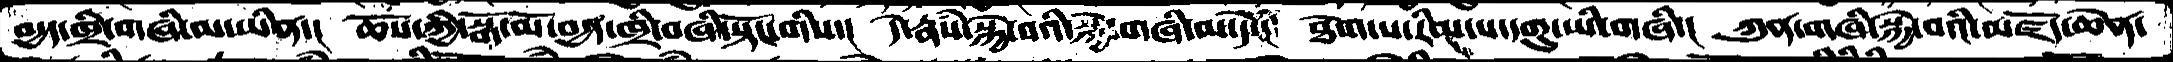བདྱད་ཁྲི་གཞི་མ་ཡིན་།  ཆོས་ཀྱི་སྒོ་མོ་བདྱད་ཁྲི་བཞི་སྟོང་གིས་།  དེ་རྣཾས་སྐྱེ་བའི་སྐྱེ་གཞི་མ་དེ་།  ཐེག་པ་རིམ་པ་དགུ་ཡི་གཞི་།  ཀུན་གཞི་སྐྱེ་བའི་མཛོད་ཆེན་
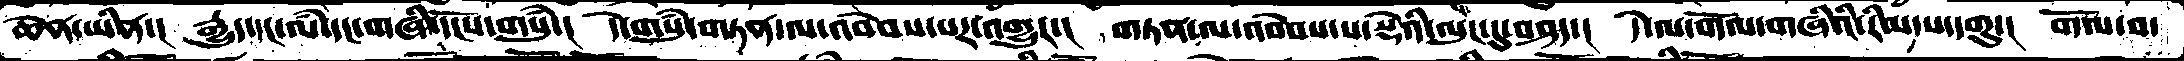ཆེན་ཡིན་།  རྒྱུད་དང་ལཾ་དང་གཞི་དངོས་གསུཾ་།  དེ་གསུཾ་གཏན་ལ་འབེབས་པར་འགྱུར་།  གཏན་ལ་འབེབས་པ་སྡེའི་ལུང་དུ་བཤད་།  དེ་ལ་གོལ་གཞིའི་རིམ་པ་དགུ་།  གོལ་བ་
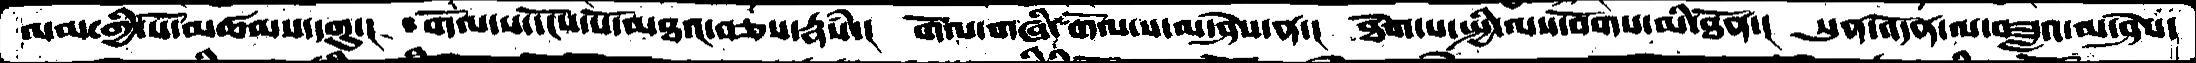ལམ་གྱི་སོ་མཚམས་དགུ་།  གོལ་ས་དངོས་པོ་མཐའ་བཅས་རྣཾས་།  གོལ་གཞི་གོལ་ས་མ་ཤེས་ན་།  ཐེག་པ་སྤྱི་ལས་བོགས་མི་ཐོན་།  སུན་འདོན་ལ་བཟླའ་མ་ཤེས་
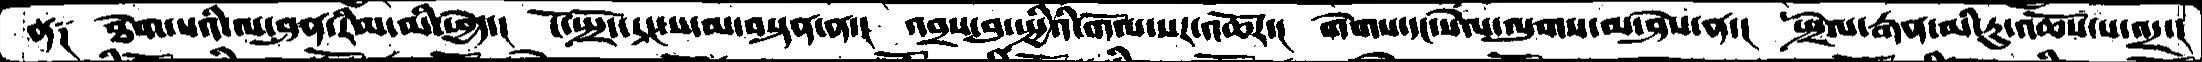ན༑  ཐེག་པའི་ལ་ཤན་རིམ་མི་ཕྱེད་།  ངོ་སྤྲོད་རང་ས་མ་བསྟན་ན་།  འབྲས་བུ་སྤྱིའི་གོལ་སར་འཆོར་།  གེགས་དང་སེལ་ལུགས་མ་ཤེས་ན་།  སྤྲེལ་རྒན་མི་རུ་འཆོས་པ་འདྲ་།
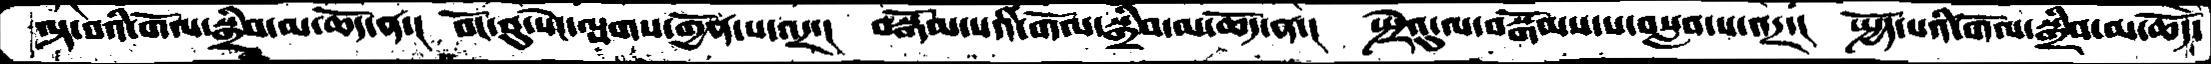ལྟ་བའི་གོལ་སྒྲིབ་མ་ཆོད་ན་།  བོང་བུ་སེང་ལྤགས་གྱོན་པ་འདྲ་།  བསྒོམ་པའི་གོལ་སྒྲིབ་མ་ཆོད་ན་། སྤྲེའུ་ལ་བསྒོམས་པ་བསླབ་པ་འདྲ་།  སྤྱོད་པའི་གོལ་སྒྲིབ་མ་ཆོད་
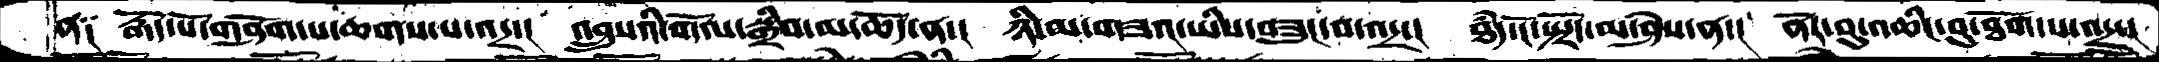ན༑  རྒོད་པོ་གཤོག་པ་ཆགས་པ་འདྲ་།  འབྲུསའི་གོལ་སྒྲིབ་མ་ཆོད་ན་།  ཉི་མ་གཟའ་ཡིས་བཟུང་བ་འདྲ་།  ཐདཾ་ངོ་སྤྲོད་མ་ཤེས་ན་།  ནོར་བུ་འཆིང་བུ་ཐོག་པ་འདྲ་།
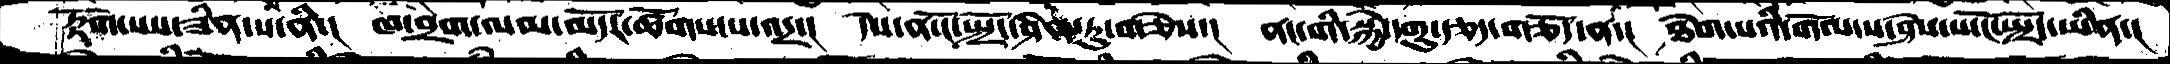རྟོག་པས་ཟིན་པ་ནི་།  ཁ་བྲག་ལམ་མདོར་ཚོགས་པ་འདྲ་།  དེས་ན་ངོ་སྤྲོད་ཤིན་ཏུ་གཅེས་།  ནང་གི་སྐྱེ་དགུ་རྩད་གཅོད་ན་།  ཐེག་པའི་གོལ་ས་ཤེས་པ་ངོ་སྤྲོད་ཡིན་།
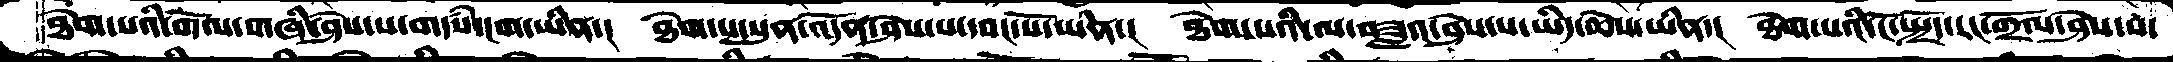ཐེག་པའི་གོལ་གཞི་ཤེས་པ་གདཾས་ངག་ཡིན་།  ཐེག་པ་སུན་འདོན་ཤེས་པ་དབང་པོ་ཡིན་།  ཐེག་པའི་ལ་བཟླའ་ཤེས་པ་ཡིད་ཆེས་ཡིན་།  ཐེག་པའི་ངོ་སྤྲོད་རང་གྲོལ་ཤེས་པ་
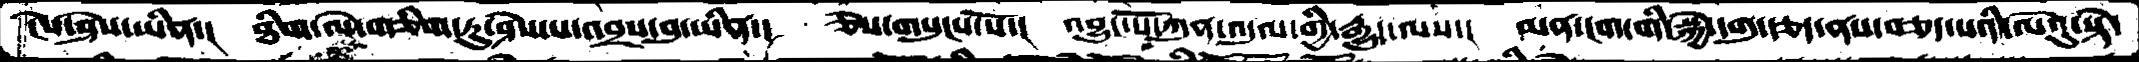ངེས་ཤེས་ཡིན་།  ཐིག་ལེ་གཅིག་ཏུ་ཤེས་པ་འབྲས་བུ་ཡིན་།  ཅེས་གསུངས་སོ་།  འབྱུང་པོ་ཀུན་འདུལ་གྱི་རྒྱུད་ལས་།  མན་ངག་གི་སྐྱེ་དགུ་རྩད་ནས་བཅད་པའི་ལེའུ་སྟེ་
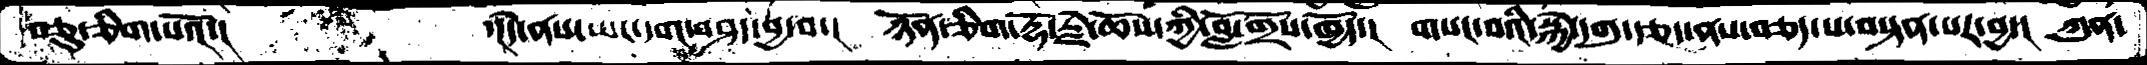བཅུ་ཅིག་པའོ་།       ་།དེེ་ནས་ཡང་དག་བཤད་བྱ་བ་།  ཉོན་ཅིག་རྡོ་རྗེ་ཆོས་ཀྱི་བློ་གྲོས་ཁྱོད་།  གསང་བའི་སྐྱེ་དགུ་རྩད་ནས་བཅད་པ་བསྟན་པར་བྱ་།  ཀུན་
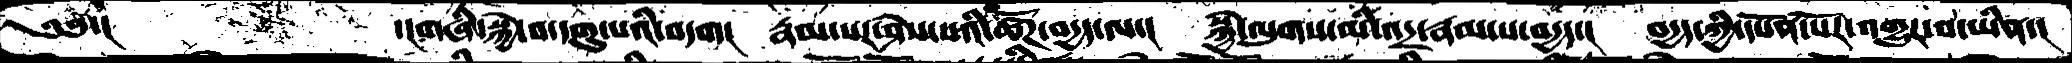༄༅་།           ་།གཞི་སྐྱེ་བ་དགུ་པའི་བདག།   རྣམ་པར་ཤེས་པའི་ཚོཌ་བདྱད་ལ་།   སྐྱེ་ལུགས་མི་འདྲ་རྣམ་པ་བདྱད་།  བདྱད་ཀྱི་དཔོན་པོར་འགྱུར་བ་ཡིན་།
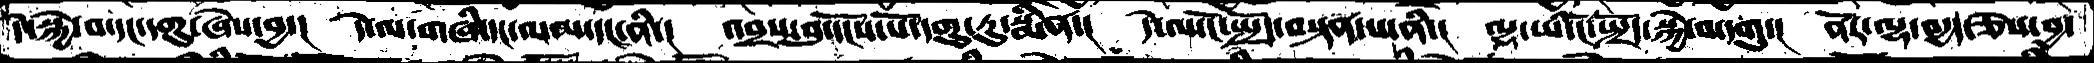དེ་སྐྱེ་བ་དང་དགུ་ཞེས་བྱ་།   དེ་ལ་གཞི་དང་ལམ་དང་ནི་།  འབྲས་བུ་དངོས་པོ་དགུ་རུ་སྨིན་།  དེ་ལ་ངོ་སྤྲོད་བསྟན་པ་ནི་།  ལྷ་ཡི་ངོ་སྤྲོད་སྐྱེ་བ་དགུ་།  ནོར་ལྷ་བདྱདཅེས་བྱ་
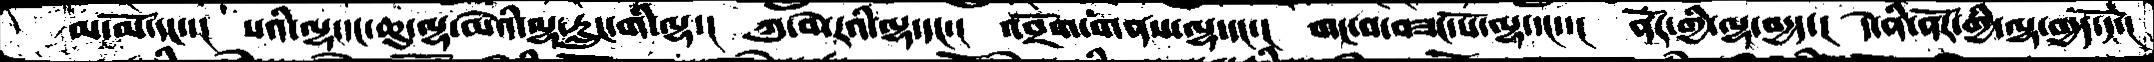མ་མོ་དང་་།  སའི་ལྷ་དང་ཆུ་ལྷ་མེའི་ལྷ་རླུང་གི་ལྷ་།   ཀུ་བེ་རའི་ལྷ་དང་་།  འབྲོག་གནས་ལྷ་དང་་།  གང་བ་བཟང་པོ་ལྷ་དང་་།   ནོར་གྱི་ལྷ་བདྱད།  དེ་ནི་ནོར་གྱི་ལྷ་བདྱད་དོ་།
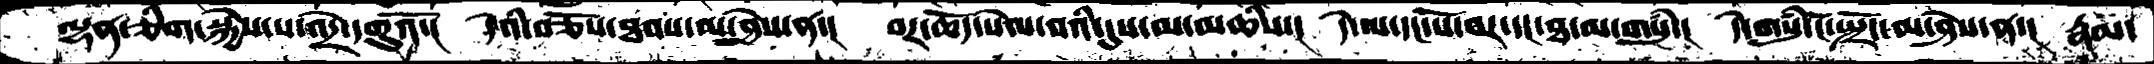ལྷན་ཅིག་སྐྱེས་པ་འདྲེ་དགུའོ་།  དེའི་བཅོས་ཐབས་ལ་མ་བྱེས་ན་།  བར་ཆོད་སེལ་བའི་དུས་མ་མཆི་།  དེ་ལ་དང་པོ་བར་དང་ཐ་མ་གསུཾ་།  དེ་གསུཾ་ངོ་སྤྲོད་མ་ཤེས་ན་།  རྣམ་
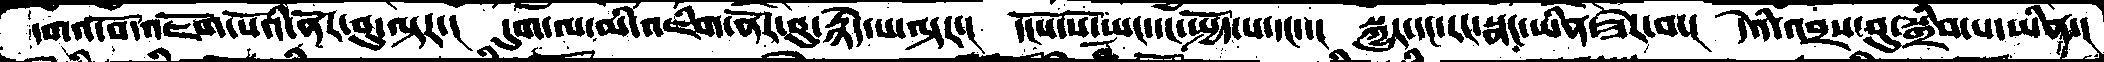དགའ་བོ་འཇོག་པོའི་ནོར་བུ་ལྟར་།  དུག་ལ་མི་འཇིག་ནོར་བུ་རྙེད་པ་ལྟར་།  དངོས་པོ་སྤང་དང་སྤྱོད་པ་དང་་།  སྐྱུར་དང་རང་སྣང་ཡིན་ཟེར་བ་།  དེའི་འབྲས་བུ་སྒྲིབ་པ་ཡིན་།
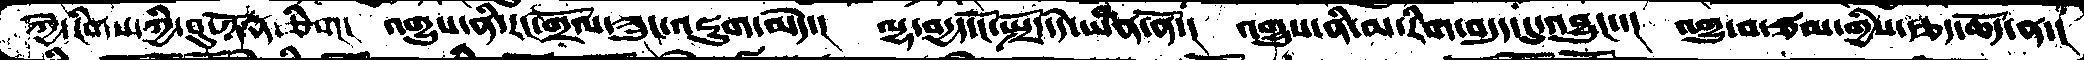ཀྱེ་རིགས་ཀྱི་བུ་ཉོན་ཅིག།  འགྱུས་ནི་རང་གྲོལ་ཟུང་འཇུག་མེད་།  ལྷ་བདྱད་ངོ་སྤྲོད་དེ་ཡིན་ནོ་།  འགྱུས་ནི་མ་རིག་བདུད་དུ་འབྱུང་་།  འགྱུ་བ་ཙམ་གྱིས་རྩད་ཆོད་ན་།
